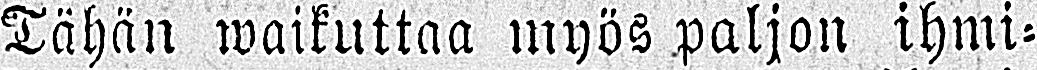Tähän waikuttaa myös paljon ihmi-
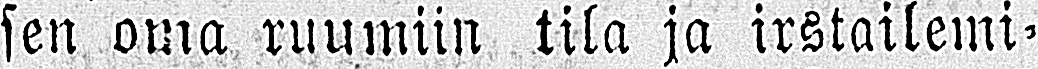sen oma ruumiin tila ja irstailemi-
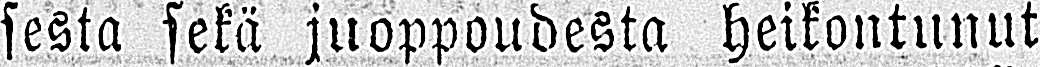sesta sekä juoppoudesta heikontunut
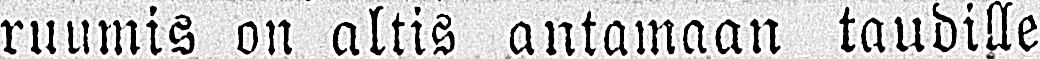ruumis on altis antamaan taudille
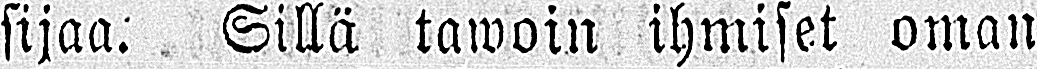sijaa. Sillä tawoin ihmiset oman
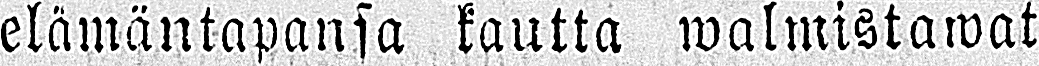elämäntapansa kautta walmistawat
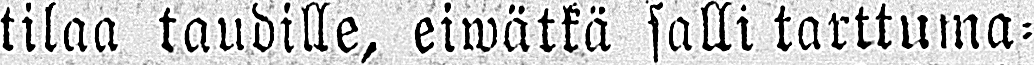tilaa taudille, eiwätkä salli tarttuma-
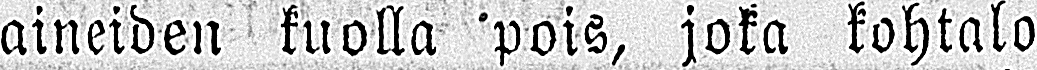aineiden kuolla pois, joka kohtalo
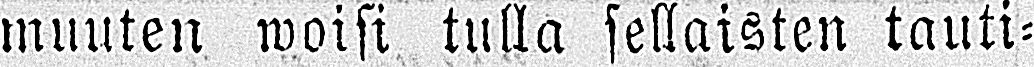muuten woisi tulla sellaisten tauti-
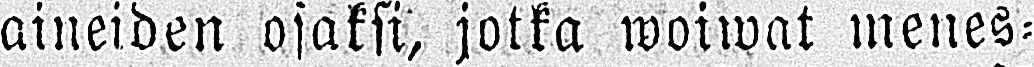aineiden osaksi, jotka woiwat menes-
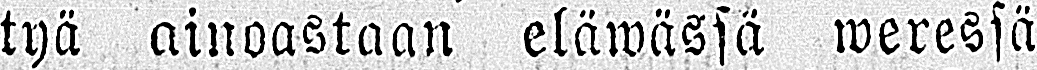tyä ainoastaan eläwässä weressä
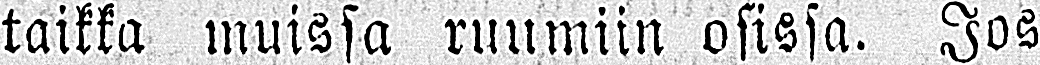taikka muissa ruumiin osissa. Jos
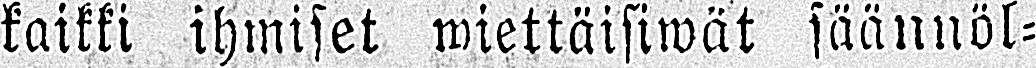kaikki ihmiset wiettäisiwät säännöl-
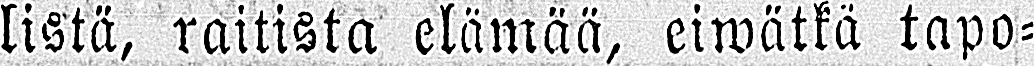listä, raitista elämää, eiwätkä tapo-
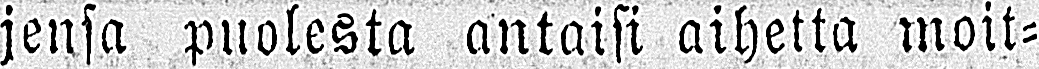jensa puolesta antaisi aihetta moit-
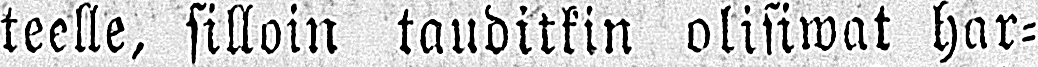teelle, silloin tauditkin olisiwat har-
